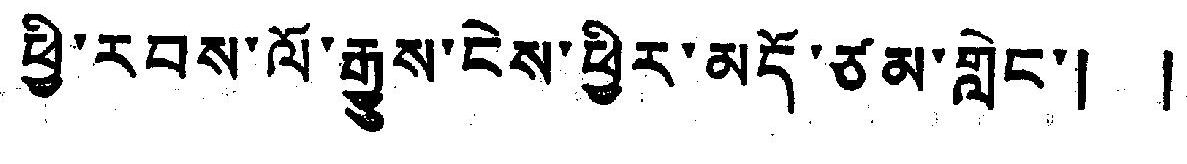ཕྱི་རབས་ལོ་རྒྱུས་ངེས་ཕྱིར་མདོ་ཙམ་གླེང་། །
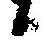1
